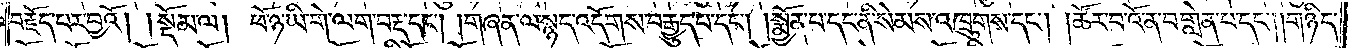བརྗོད་པར་བྱའོ།    །སྡོམ་ལ། ཕོ་ཉ་ཡི་གེ་ལག་བརྡ་དང༌། །གཞན་ལ་སྙད་འདོགས་བརྒྱུད་པ་དང༌། །སྨྱོན་པ་དང་ནི་སེམས་འཁྲུགས་དང༌། །ཚོར་བ་འོན་པ་གླེན་པ་དང༌། །གཉིད་
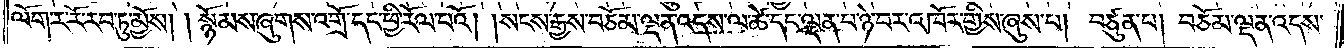ལོག་ར་རོ་རབ་ཏུ་མྱོས། །སྙོམས་ཞུགས་འགྲོ་དང་ཕྱི་རོལ་པའོ། །སངས་རྒྱས་བཅོམ་ལྡན་འདས་ལ་ཚེ་དང་ལྡན་པ་ཉེ་བར་འཁོར་གྱིས་ཞུས་པ། བཙུན་པ། བཅོམ་ལྡན་འདས་
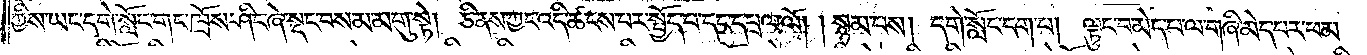ཀྱིས་ཡང་དགེ་སློང་གང་ཁྲོས་ཤིང་ཞེ་སྡང་བསམ་མགུ་སྟེ། ཅི་ནས་ཀྱང་འདི་ཚངས་པར་སྤྱོད་པ་དང་དཔྲལ་ལོ། །སྙམ་པས། དགེ་སློང་དག་པ། ལྟུང་བ་མེད་པ་ལ་གཞི་མེད་པར་ཕམ་
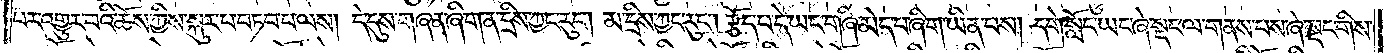པར་འགྱུར་བའི་ཆོས་ཀྱིས་སྐུར་པ་བཏབ་པ་ལས། དེ་དུས་གཞན་ཞིག་ན་དྲིས་ཀྱང་རུང༌། མ་དྲིས་ཀྱང་རུང༌། རྩོད་པ་དེ་ཡང་གཞི་མེད་པ་ཞིག་ཡིན་པས། དགེ་སློང་ཡང་ཞེ་སྡང་ལ་གནས་པས་ཞེ་སྡང་གིས་
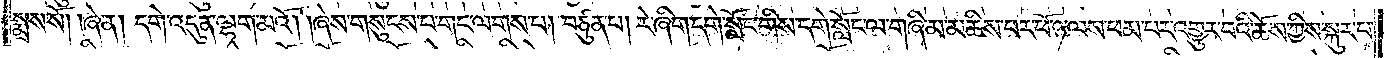སྨྲས་སོ། །ཞེ་ན། དགེ་འདུན་ལྷག་མའོ། །ཞེས་གསུངས་པ་གང་ལགས་པ། བཙུན་པ། རེ་ཞིག་དགེ་སློང་གིས་དགེ་སློང་ལ་གཞི་མ་མཆིས་པར་ཕོ་ཉ་ལས་ཕམ་པར་འགྱུར་བའི་ཆོས་ཀྱིས་སྐུར་པ་
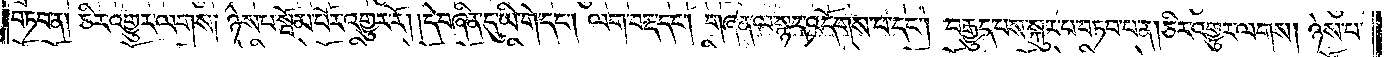བཏབ་ན། ཅིར་འགྱུར་ལགས། ཉེས་པ་སྦོམ་པོར་འགྱུར་རོ། །དེ་བཞིན་དུ་ཡི་གེ་དང༌། ལག་བརྡ་དང༌། གཞན་ལ་སྙད་འདོགས་པ་དང༌། བརྒྱུད་པས་སྐུར་པ་བཏབ་པ་ན། ཅིར་འགྱུར་ལགས། ཉེས་པ་
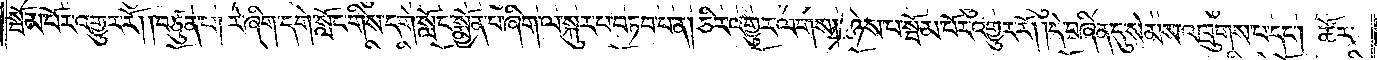སྦོམ་པོར་འགྱུར་རོ། །བཙུན་པ། རེ་ཞིག་དགེ་སློང་གིས་དགེ་སློང་སྨྱོན་པ་ཞིག་ལ་སྐུར་པ་བཏབ་པ་ན། ཅིར་འགྱུར་ལགས། ཉེས་པ་སྦོམ་པོར་འགྱུར་རོ། །དེ་བཞིན་དུ་སེམས་འཁྲུགས་པ་དང༌། ཚོར་
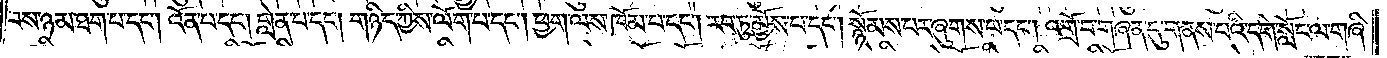པས་ཉམ་ཐག་པ་དང༌། འོན་པ་དང༌། གླེན་པ་དང༌། གཉིད་ཀྱིས་ལོག་པ་དང༌། ཕྱག་ལས་ཁོམ་པ་དང༌། རབ་ཏུ་མྱོས་པ་དང༌། སྙོམས་པར་ཞུགས་པ་དང༌། འགྲོ་བ་གཞན་དུ་གནས་པའི་དགེ་སློང་ལ་གཞི་
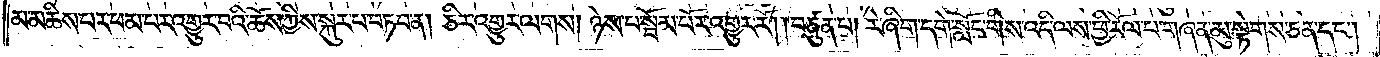མ་མཆིས་པར་ཕམ་པར་འགྱུར་བའི་ཆོས་ཀྱིས་སྐུར་པ་བཏབ་ན། ཅིར་འགྱུར་ལགས། ཉེས་པ་སྦོམ་པོར་འགྱུར་རོ། །བཙུན་པ། རེ་ཞིག་དགེ་སློང་གིས་འདི་ལས་ཕྱི་རོལ་པ་གཞན་མུ་སྟེགས་ཅན་དང༌།
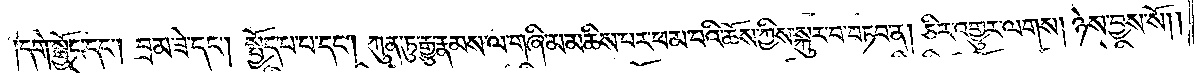དགེ་སྦྱོང་དང༌། བྲམ་ཟེ་དང༌། སྤྱོད་པ་པ་དང༌། ཀུན་ཏུ་རྒྱུ་རྣམས་ལ་གཞི་མ་མཆིས་པར་ཕམ་པའི་ཆོས་ཀྱིས་སྐུར་པ་བཏབ་ན། ཅིར་འགྱུར་ལགས། ཉེས་བྱས་སོ༎
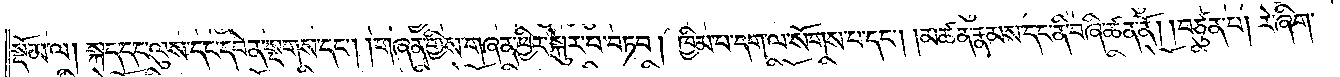སྡོམ་ལ། སྐད་དང་ལུས་དང་དབེན་སྔགས་དང༌། །གཞན་གྱིས་གཞན་ཕྱིར་སྐུར་པ་བཏབ། ཁྱིམ་པ་དག་ལ་སོགས་པ་དང༌། །མཚན་རྣམས་དང་ནི་བཞི་ཚན་ནོ། །བཙུན་པ། རེ་ཞིག་
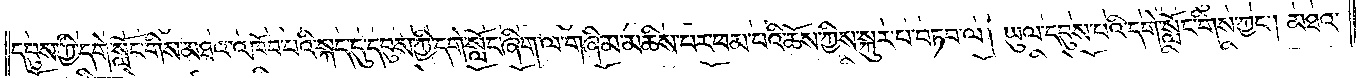དབུས་ཀྱི་དགེ་སློང་གིས་མཐའ་འཁོབ་པའི་སྐད་དུ་དབུས་ཀྱི་དགེ་སློང་ཞིག་ལ་གཞི་མ་མཆིས་པར་ཕམ་པའི་ཆོས་ཀྱིས་སྐུར་པ་བཏབ་ལ། ཡུལ་དབུས་པའི་དགེ་སློང་གིས་ཀྱང༌། མཐའ་
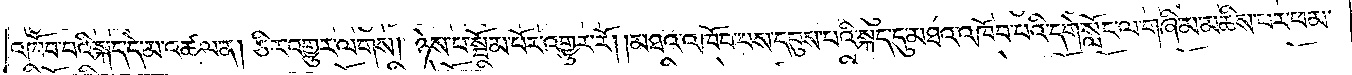འཁོབ་པའི་སྐད་དེ་མ་འཚལ་ན། ཅིར་འགྱུར་ལགས། ཉེས་པ་སྦོམ་པོར་འགྱུར་རོ། །མཐའ་འཁོབ་པས་དབུས་པའི་སྐད་དུ་མཐའ་འཁོབ་པའི་དགེ་སློང་ལ་གཞི་མ་མཆིས་པར་ཕམ་
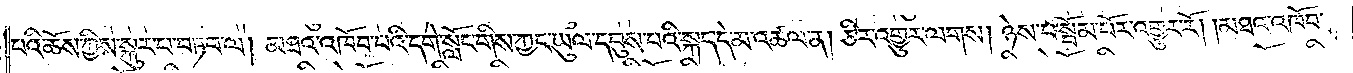པའི་ཆོས་ཀྱིས་སྐུར་པ་བཏབ་ལ། མཐའ་འཁོབ་པའི་དགེ་སློང་གིས་ཀྱང་ཡུལ་དབུས་པའི་སྐད་དེ་མ་འཚལ་ན། ཅིར་འགྱུར་ལགས། ཉེས་པ་སྦོམ་པོར་འགྱུར་རོ། །མཐའ་འཁོབ་
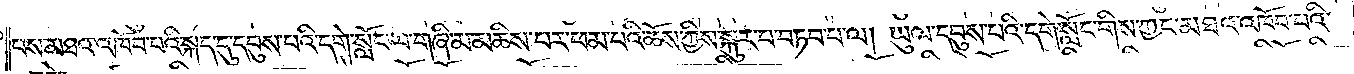པས་མཐའ་འཁོབ་པའི་སྐད་དུ་དབུས་པའི་དགེ་སློང་ལ་གཞི་མ་མཆིས་པར་ཕམ་པའི་ཆོས་ཀྱིས་སྐུར་པ་བཏབ་པ་ལ། ཡུལ་དབུས་པའི་དགེ་སློང་གིས་ཀྱང་མཐའ་འཁོབ་པའི་
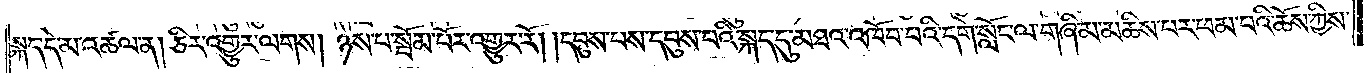སྐད་དེ་མ་འཚལ་ན། ཅིར་འགྱུར་ལགས། ཉེས་པ་སྦོམ་པོར་འགྱུར་རོ། །དབུས་པས་དབུས་པའི་སྐད་དུ་མཐའ་འཁོར་པའི་དགེ་སློང་ལ་གཞི་མ་མཆིས་པར་ཕམ་པའི་ཆོས་ཀྱིས་
